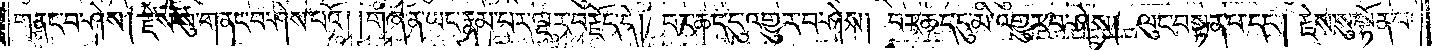གནང་བ་ཤེས། རྗེས་སུ་གནང་བ་ཤེས་པའོ། །གཞན་ཡང་རྣམ་པར་ལྔར་བརྗོད་དེ། བར་ཆད་དུ་འགྱུར་བ་ཤེས། བར་ཆད་དུ་མི་འགྱུར་བ་ཤེས། ལུང་བསྟན་པ་དང༌། རྗེས་སུ་སྟོན་པ་
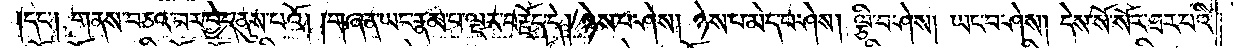དང༌། གནས་བཅའ་བར་བྱེད་ནུས་པའོ། །གཞན་ཡང་རྣམ་པ་ལྔར་བརྗོད་དེ། ཉེས་པ་ཤེས། ཉེས་པ་མེད་པ་ཤེས། ལྕི་བ་ཤེས། ཡང་བ་ཤེས། དེས་སོ་སོར་ཐར་པའི་
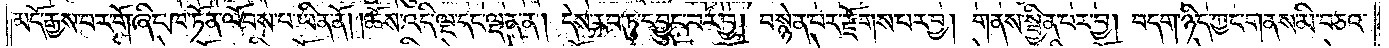མདོ་རྒྱས་པར་གོ་ཞིང་ཁ་ཏོན་ལོབས་པ་ཡིན་ནོ། །ཆོས་འདི་ལྔ་དང་ལྡན་ན། དེས་རབ་ཏུ་དབྱུང་བར་བྱ། བསྙེན་པར་རྫོགས་པར་བྱ། གནས་སྦྱིན་པར་བྱ། བདག་ཉིད་ཀྱང་གནས་མི་བཅའ་
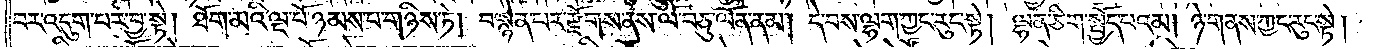བར་འདུག་པར་བྱ་སྟེ། ཐོག་མའི་ལྔ་པོ་ཉམས་པ་གཉིས་ཏེ། བསྙེན་པར་རྫོགས་ནས་ལོ་བཅུ་ལོན་ནམ། དེ་བས་ལྷག་ཀྱང་རུང་སྟེ། ལྷན་ཅིག་སྤྱོད་པའམ། ཉེ་གནས་ཀྱང་རུང་སྟེ།
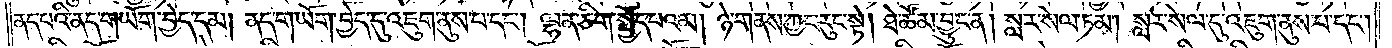ནད་པའི་ནད་གཡོག་བྱེད་དམ། ནད་གཡོགས་བྱེད་དུ་འཇུག་ནུས་པ་དང༌། ལྷན་ཅིག་སྤྱོད་པའམ། ཉེ་གནས་ཀྱང་རུང་སྟེ། ཐེ་ཚོམ་བྱུང་ན། སླར་སེལ་ཏམ། སླར་སེལ་དུ་འཇུག་ནུས་པ་དང༌།
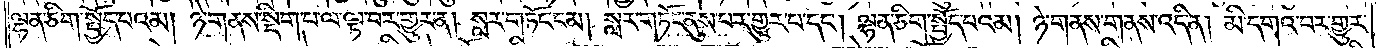ལྷན་ཅིག་སྤྱོད་པའམ། ཉེ་གནས་སྡིག་པ་ལ་ལྟ་བར་གྱུར་ན། སླར་གཏོང་ངམ། སླར་གཏོང་ནུས་པར་གྱུར་པ་དང༌། ལྷན་ཅིག་སྤྱོད་པའམ། ཉེ་གནས་གནས་འདི་ན། མི་དགའ་བར་གྱུར་
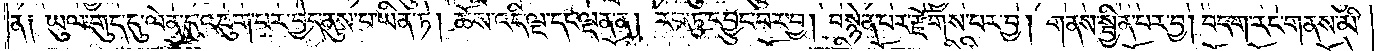ན༑ ཡུལ་གུད་དུ་ལེན་དུ་འཇུག་པར་བྱེད་ནུས་པ་ཡིན་ཏེ། ཆོས་འདི་ལྔ་དང་ལྡན་ན། རབ་ཏུ་དབྱུང་བར་བྱ། བསྙེན་པར་རྫོགས་པར་བྱ། གནས་སྦྱིན་པར་བྱ། བདག་རང་གནས་མི་
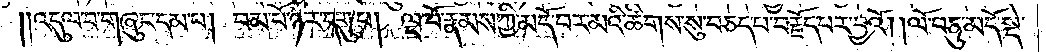༎འདུལ་བ་གཞུང་དམ་པ། བམ་པོ་ཉེར་དགུ་པ། ལྔ་པོ་རྣམས་ཀྱི་མདོ་བར་མའི་ཚིགས་སུ་བཅད་པ་བརྗོད་པར་བྱའོ། །ལོ་བཅུ་མདོ་སྡེ་
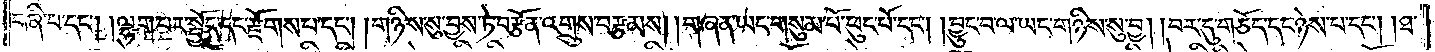བཞི་པ་དང༌། །ལྷག་པར་སྤྱོད་དང་རྫོགས་པ་དང༌། །གཉིས་སུ་བྱས་ཏེ་བརྩོན་འགྲུས་བརྩམས། །གཞན་ཡང་གསུམ་པོ་ཕུང་པོ་དང༌། །བྱུང་བ་ལ་ཡང་གཉིས་སུ་བྱ། །བར་དུ་གཅོད་དང་ཉེས་པ་དང༌། །ཐ་
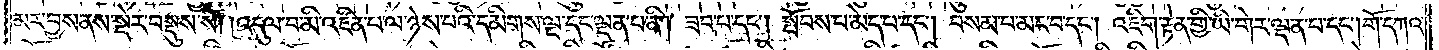མར་བྱས་ནས་སྡེར་བསྡུས་སོ། །འདུལ་བ་མི་འཛིན་པ་ལ་ཉེས་པའི་དམིགས་ལྔ་དང་ལྡན་པ་ནི། ཟབ་པ་དང༌། སྤོབས་པ་མེད་པ་དང༌། བསམ་པ་མང་བ་དང༌། འཇིག་རྟེན་གྱི་ཡི་གེར་ལྡན་པ་དང༌། གོ་དཀའ་
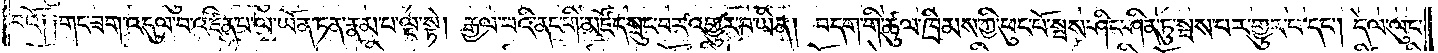བའོ༑ ༑གང་ཟག་འདུལ་བ་འཛིན་པ་ལ་ཡོན་ཏན་རྣམ་པ་ལྔ་སྟེ། རྒྱལ་བའི་ནང་གི་མཛོད་སྲུང་བར་འགྱུར་བ་ཡིན། བདག་གི་ཚུལ་ཁྲིམས་ཀྱི་ཕུང་པོ་སྦས་ཤིང་ཤིན་ཏུ་སྦས་པར་གྱུར་པ་དང༌། དེ་ལ་ལུང་
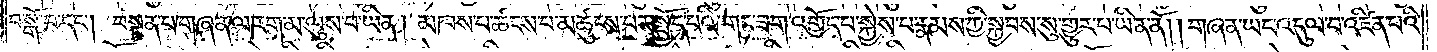བསྒོ་བ་དང༌། བསྟན་པ་གཞན་ལ་རག་མ་ལུས་པ་ཡིན། མཁས་པ་ཚངས་པ་མཚུངས་པར་སྤྱོད་པའི་གང་ཟག་འགྱོད་པ་སྐྱེས་པ་རྣམས་ཀྱི་སྐྱབས་སུ་གྱུར་པ་ཡིན་ནོ། །གཞན་ཡང་འདུལ་བ་འཛིན་པའི་
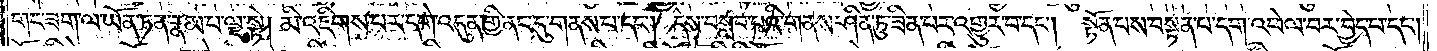གང་ཟག་ལ་ཡོན་ཏན་རྣམ་པ་ལྔ་སྟེ། མི་འཇིགས་པར་དགེ་འདུན་གྱི་ནང་དུ་གནས་པ་དང༌། དེས་བསླབ་པའི་གནས་ཤིན་ཏུ་ཟིན་པར་འགྱུར་བ་དང༌། སྟོན་པས་བསྟན་པ་དག་འཕེལ་བར་བྱེད་པ་དང༌།
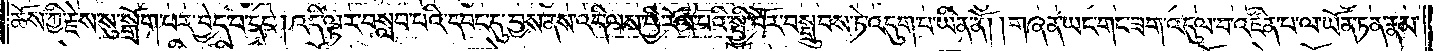ཆོས་ཀྱི་རྗེས་སུ་སྒྲོག་པར་བྱེད་པ་དང༌། འདི་ལྟར་བསླབ་པའི་དབང་དུ་བྱས་ནས་འདི་ལས་ཕྱི་རོལ་པའི་སྤྱི་བོར་བསྒྲུབས་ཏེ་འདུག་པ་ཡིན་ནོ། །གཞན་ཡང་གང་ཟག་འདུལ་བ་འཛིན་པ་ལ་ཡོན་ཏན་རྣམ་
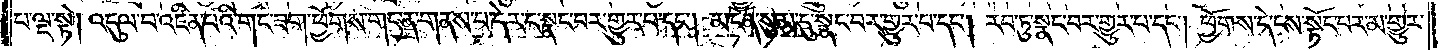པ་ལྔ་སྟེ། འདུལ་བ་འཛིན་པའི་གང་ཟག་ཕྱོགས་གང་ན་གནས་པ་དེར་ང་སྣང་བར་གྱུར་པ་དང༌། མངོན་སུམ་དུ་སྣང་བར་གྱུར་པ་དང༌། རབ་ཏུ་སྣང་བར་གྱུར་པ་དང༌། ཕྱོགས་དེ་ངས་སྟོང་པར་མ་གྱུར་
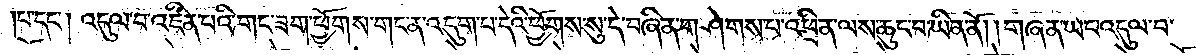པ་དང༌། འདུལ་བ་འཛིན་པའི་གང་ཟག་ཕྱོགས་གང་ན་འདུག་པ་དེའི་ཕྱོགས་སུ་དེ་བཞིན་གཤེགས་པ་འཕྲིན་ལས་ཆུང་བ་ཡིན་ནོ། །གཞན་ཡང་འདུལ་བ་
